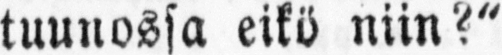tuunossa eikö niin?"
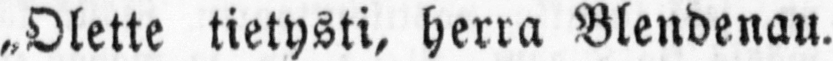„Olette tietysti, herra Blendenau.
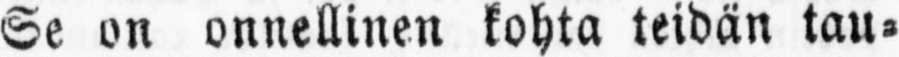Se on onnellinen kohta teidän tau-
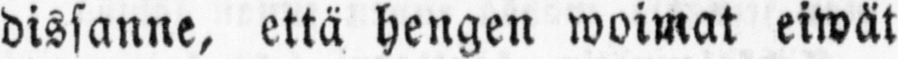dissanne, että hengen woimat eiwät
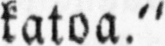katoa."
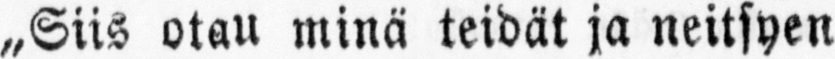„Siis otau minä teidät ja neitsyen
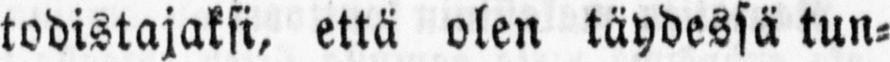todistajaksi, että olen täydessä tun-
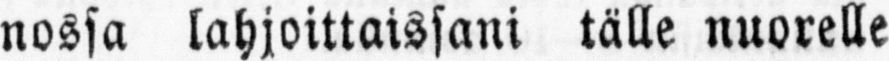nossa lahjoittaissani tälle nuorelle
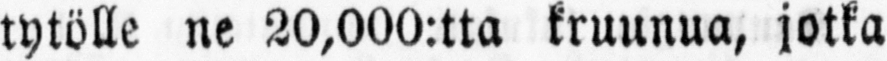tytölle ne 20,000:tta kruunua, jotka
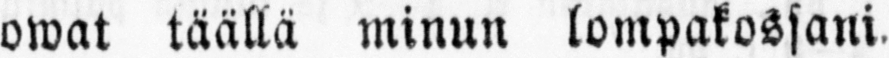owat täällä minun lompakossani.
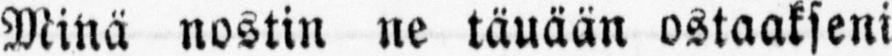Minä nostin ne täuään ostaakseni
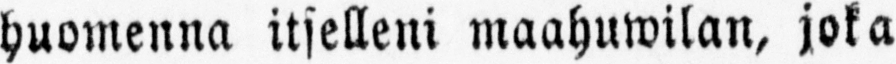huomenna itselleni maahuwilan, joka
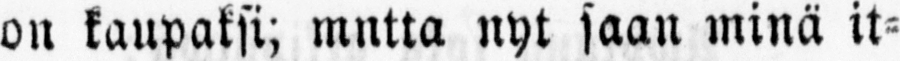on kaupaksi; mntta nyt saan minä it-
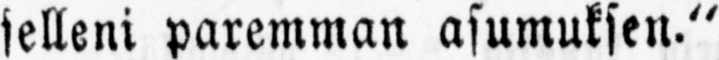selleni paremman asumuksen."
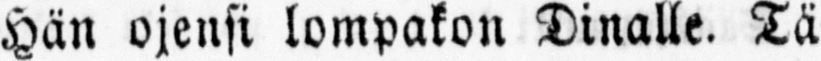Hän ojensi lompakon Dinalle. Tä-
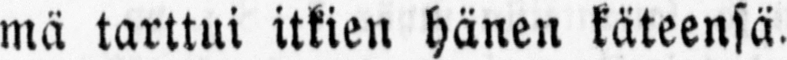mä tarttui itkien hänen käteensä.
